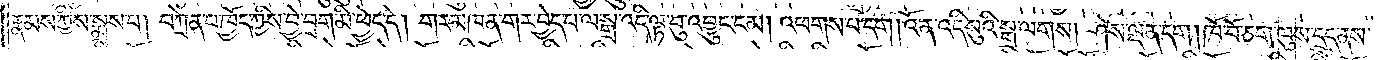རྣམས་ཀྱིས་སྨྲས་པ། བཀྲེན་པ་ཁྱོད་ཀྱིས་བྱེ་བྲག་མི་ཕྱེད་དེ། གར་མཁན་གར་བྱེད་པ་ལ་སྒྲ་འདི་ལྟ་བུ་འབྱུང་ངམ། འཕགས་པ་དག། འོ་ན་འདི་སུའི་སྒྲ་ལགས། ཤེས་ལྡན་དག། ཁོ་བོ་ཅག་ལུས་དྲུད་ནས་
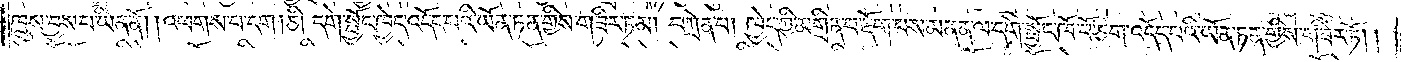ཁྲུས་བྱས་པ་ཡིན་ནོ། །འཕགས་པ་དག །ཅི། དགེ་སྦྱོང་ཁྱེད་འདོད་པའི་ཡོན་ཏན་གྱིས་གཟིར་ཏམ། བཀྲེན་པ། ཁྱེད་ཀྱི་མགྲིན་པ་རྡོག་པས་མནན་ལ་དགེ་སྦྱོང་ཁོ་བོ་ཅག་འདོད་པའི་ཡོན་ཏན་གྱིས་གཟིར་ཏོ། །
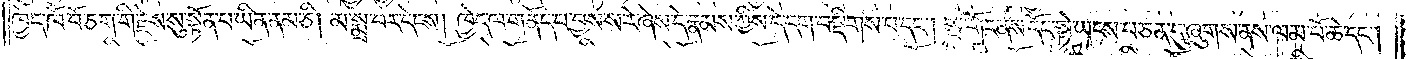ཁྱེད་ཁོ་བོ་ཅག་གི་རྗེས་སུ་སྟོན་པ་ཡིན་ནམ་ཅི། མ་སྨྲ་བར་དེངས། ཁྱེད་ལ་གནོད་པ་བྱས་ས་རེ་ཞེས་དེ་རྣམས་ཀྱིས་དེ་དག་བསྡིགས་པ་དང༌། སྤ་གོང་ནས་དོང་སྟེ་ཡངས་པ་ཅན་དུ་ཞུགས་ནས་ལམ་པོ་ཆེ་དང༌།
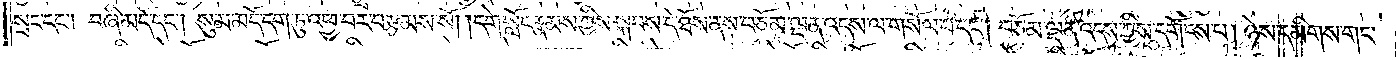སྲང་དང༌། བཞི་མདོ་དང༌། སུམ་མདོ་དག་ཏུ་འཕྱ་བར་བརྩམས་སོ། །དགེ་སློང་རྣམས་ཀྱིས་སྐབས་དེ་ཐོས་ནས་བཅོམ་ལྡན་འདས་ལ་གསོལ་པ་དང༌། བཅོམ་ལྡན་འདས་ཀྱིས་དགོངས་པ། ཉེས་དམིགས་གང་
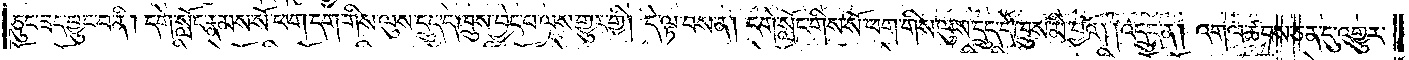ཅུང་ཟད་བྱུང་བ་ནི། དགེ་སློང་རྣམས་སོ་ཕག་དག་གིས་ལུས་དྲུད་དེ་ཁྲུས་བྱེད་པ་ལས་གྱུར་གྱི། དེ་ལྟ་བས་ན། དགེ་སློང་གིས་སོ་ཕག་གིས་ལུས་དྲུད་དེ་ཁྲུས་མི་བྱའོ། །འདྲུད་ན། འགལ་ཚབས་ཅན་དུ་འགྱུར་
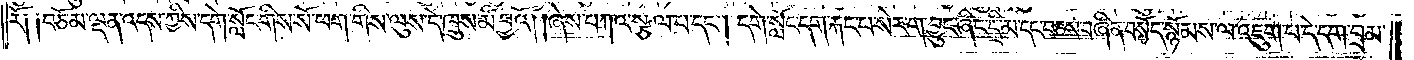རོ༑ ༑བཅོམ་ལྡན་འདས་ཀྱིས་དགེ་སློང་གིས་སོ་ཕག་གིས་ལུས་དེ་ཁྲུས་མི་བྱའོ། །ཞེས་བཀའ་སྩལ་པ་དང༌། དགེ་སློང་དག་རྐང་པ་སེར་ག་བྱུང་ཞིང་དྲི་མ་དང་བཅས་བཞིན་བསོད་སྙོམས་ལ་འཇུག་པ་དེ་དག་བྲམ་
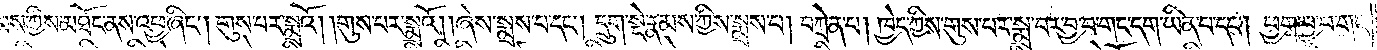རྣམས་ཀྱིས་མཐོང་ནས་འཕྱ་ཞིང༌། གུས་པར་སྨྲའོ། །གུས་པར་སྨྲའོ། །ཞེས་སྨྲས་པ་དང༌། དྲུག་སྡེ་རྣམས་ཀྱིས་སྨྲས་པ། བཀྲེན་པ། ཁྱེད་ཀྱིས་གུས་པར་སྨྲ་བར་བྱ་བ་གང་དག་ཡིན་པ་དང༌། ཕྱག་བྱ་བ་གང་
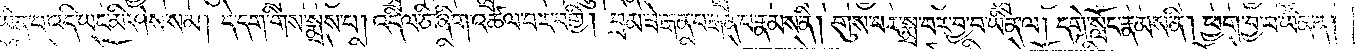དག་ཡིན་པ་འདི་ཡང་མི་ཤེས་སམ། དེ་དག་གིས་སྨྲས་པ། འདི་ལ་ཅི་ཞིག་འཚལ་བར་བགྱི། བྲམ་ཟེ་རྒན་པ་རྒན་པ་རྣམས་ནི། གུས་པར་སྨྲ་བར་བྱ་བ་ཡིན་ལ། དགེ་སློང་རྣམས་ནི། ཕྱག་བྱ་བ་ཡིན་ན།
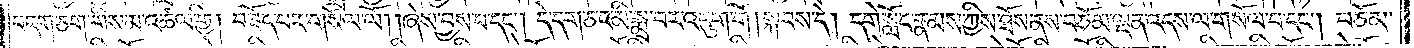བདག་ཅག་གིས་མ་འཚལ་གྱི། བཟོད་པར་གསོལ་ལོ། །ཞེས་བྱས་པ་དང༌། དེ་དག་ཅང་མི་སྨྲ་བར་འདུག་གོ །སྐབས་དེ། དགེ་སློང་རྣམས་ཀྱིས་ཐོས་ནས་བཅོམ་ལྡན་འདས་ལ་གསོལ་བ་དང༌། བཅོམ་
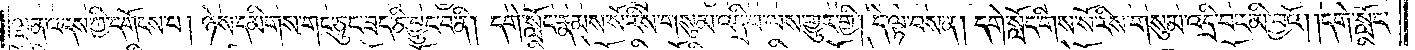ལྡན་འདས་ཀྱི་དགོངས་པ། ཉེས་དམིགས་གང་ཅུང་ཟད་ཅི་བྱུང་བ་ནི། དགེ་སློང་རྣམས་སོ་རིས་གསུམ་འདྲི་བ་ལས་གྱུར་གྱི། དེ་ལྟ་བས་ན། དགེ་སློང་གིས་སོ་རིས་གསུམ་འདྲི་བར་མི་བྱའོ། །དགེ་སློང་
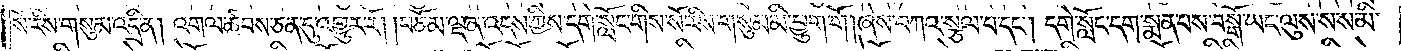སོ་རིས་གསུམ་འདྲི་ན། འགལ་ཚབས་ཅན་དུ་འགྱུར་རོ། །བཅོམ་ལྡན་འདས་ཀྱིས་དགེ་སློང་གིས་སོ་རིས་གསུམ་མི་བྱུག་གོ །ཞེས་བཀའ་སྩལ་པ་དང༌། དགེ་སློང་དག་སྨན་པས་བསྒོ་ཡང་ལུས་སས་མི་
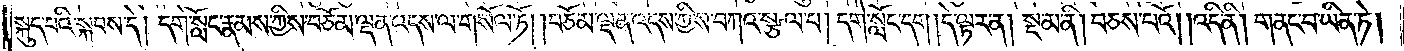སྐུད་པའི་སྐབས་དེ། དགེ་སློང་རྣམས་ཀྱིས་བཅོམ་ལྡན་འདས་ལ་གསོལ་ཏོ། །བཅོམ་ལྡན་འདས་ཀྱིས་བཀའ་སྩལ་པ། དགེ་སློང་དག །དེ་ལྟར་ན། སྔ་མ་ནི། བཅས་པའོ། །འདི་ནི། གནང་བ་ཡིན་ཏེ།
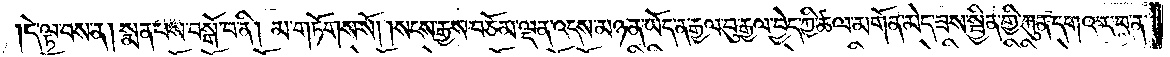།དེ་ལྟ་བས་ན། སྨན་པས་བསྒོ་བ་ནི། མ་གཏོགས་སོ། །སངས་རྒྱས་བཅོམ་ལྡན་འདས་མཉན་ཡོད་ན་རྒྱལ་བུ་རྒྱལ་བྱེད་ཀྱི་ཚལ་མགོན་མེད་ཟས་སྦྱིན་གྱི་ཀུན་དགའ་ར་བ་ན་
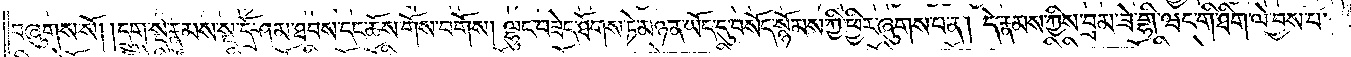བཞུགས་སོ། །དྲུག་སྡེ་རྣམས་སྔ་དྲོ་ཤམ་ཐབས་དང་ཆོས་གོས་བགོས། ལྷུང་བཟེད་ཐོགས་ཏེ་མཉན་ཡོད་དུ་བསོད་སྙོམས་ཀྱི་ཕྱིར་ཞུགས་པ་ན། དེ་རྣམས་ཀྱིས་བྲམ་ཟེ་གྷི་ཝང་གི་ཐིག་ལེ་བྱས་པ་
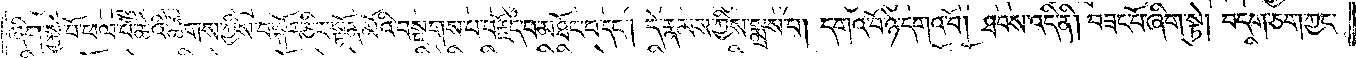ཞིག་སྐྱེ་བོ་ཕལ་པོ་ཆེའི་ཚོགས་ཀྱིས་བསྐོར་ཅིང་སྟོན་མོའི་བསྔགས་པ་བརྗོད་པ་མཐོང་བ་དང༌། དེ་རྣམས་ཀྱིས་སྨྲས་པ། དགའ་བོ་ཉེ་དགའ་བོ། ཐབས་འདི་ནི། བཟང་པོ་ཞིག་སྟེ། བདག་ཅག་ཀྱང་
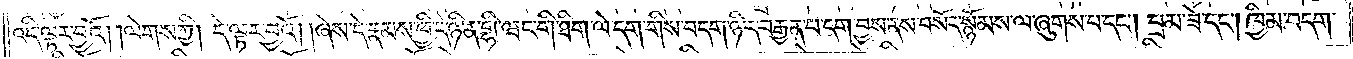འདི་ལྟར་བྱའོ། །ལེགས་ཀྱི། དེ་ལྟར་བྱའོ། །ཞེས་དེ་རྣམས་ཕྱི་དེ་ཉིན་གྷི་ཝང་གི་ཐིག་ལེ་དག་གིས་བདག་ཉིད་བརྒྱན་པ་དག་བྱས་ནས་བསོད་སྙོམས་ལ་ཞུགས་པ་དང༌། བྲམ་ཟེ་དང༌། ཁྱིམ་བདག་
